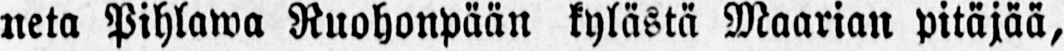neta Pihlawa Ruohonpään kylästä Maarian pitäjää,
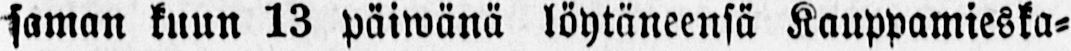saman kuun 13 päiwänä löytäneensä Kauppamieska-
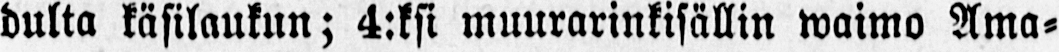dulta käsilaukun; 4:ksi muurarinkisällin waimo Ama-
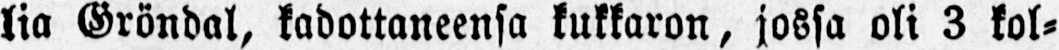lia Gröndal, kadottaneensa kukkaron, jossa oli 3 kol-
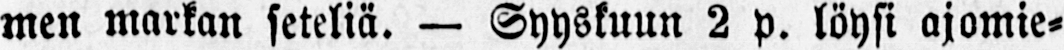men markan seteliä. — Syyskuun 2 p. löysi ajomie-
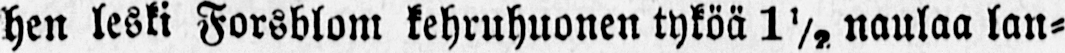hen leski Forsblom kehruhuonen tyköä 1½ naulaa lan-
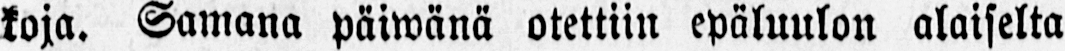koja. Samana päiwänä otettiin epäluulon alaiselta
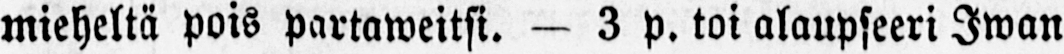mieheltä pois partaweitsi. — 3 p. toi alaupseeri Iwan
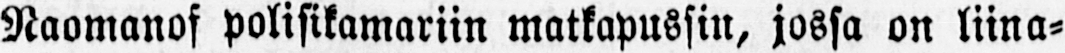Naomanof polisikamariin matkapussin, jossa on liina-
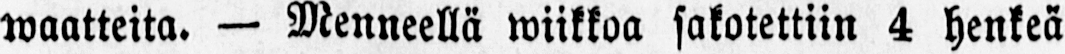waatteita. — Menneellä wiikkoa sakotettiin 4 henkeä
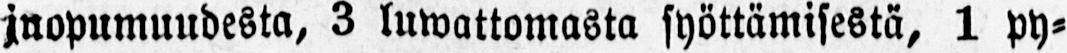juopumuudesta, 3 luwattomasta syöttämisestä, 1 py-
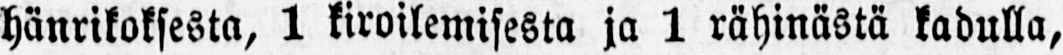hänrikoksesta, 1 kiroilemisesta ja 1 rähinästä kadulla,
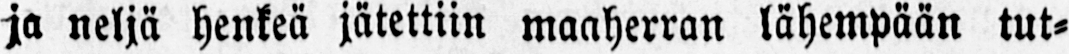ja neljä henkeä jätettiin maaherran lähempään tut-
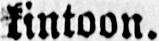kintoon.
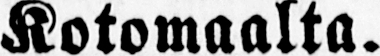Kotomaalta.
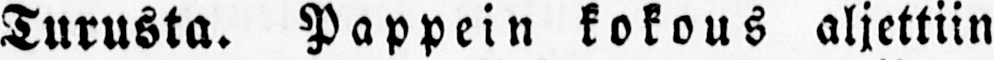Turusta. Pappein kokous aljettiin
